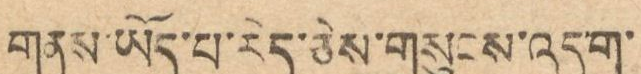གནས་ཡོད་པ་རེད་ཅེས་གསུངས་འདུག་
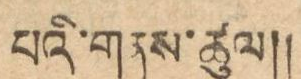པའི་གནས་ཚུལ།།
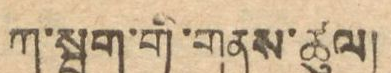ཀ་སྦུག་གི་གནས་ཚུལ།
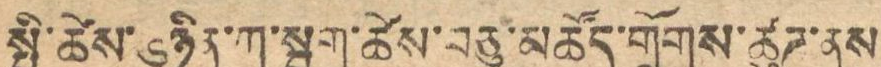སྤྱི་ཚེས་༦ཉིན་ཀ་སྦུག་ཚེས་བཅུ་མཚོད་གྲོགས་ཚུཊ་ནས
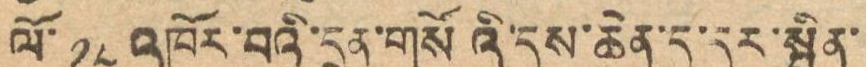ལོ་ ༡༨ འཁོར་བའི་དྲན་གསོའི་དུས་ཆེན་དུ་དུར་སྦིན་
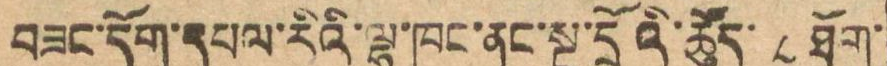བཟང་དོག་དཔལ་རིའི་ལྷ་ཁང་ནང་སྔ་དྲོའི་ཚོད་ ༨ ཐོག་
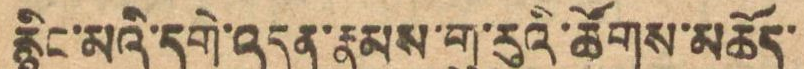རྙིང་མའི་དགེ་འདུན་རྣམས་གུ་རུའི་ཚོགས་མཆོད་
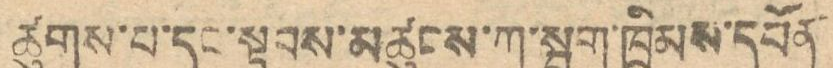ཚུགས་པ་དང་སྟབས་མཚུགས་ཀ་སྦུག་ཁྲིམས་དཔོན་
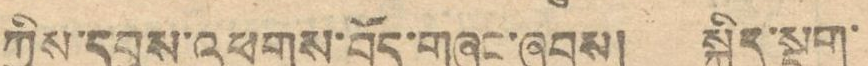ཀྱིས་དབུས་འཕགས་བོད་གཞུང་ཞབས། སྐྱིད་སྡུག་
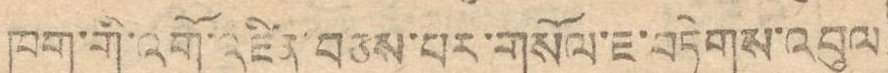ཁག་གི་འགོ་འཛིན་བཅས་པར་གསོལ་ཇ་བཏེགས་འབུལ
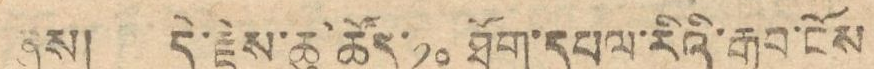ཞུས། དེ་རྗེས་ཆུ་ཚོད་ ༡༠ ཐོག་དཔལ་རིའི་རྒྱལ་ངོས
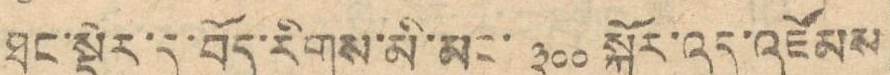ཐང་སྡེར་དུ་བོད་རིགས་མི་མང་ ༣༠༠ སྐོར་འདུ་འཛོམས
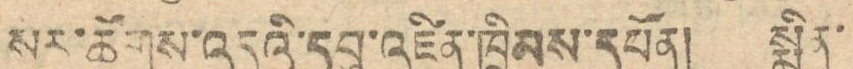སར་ཚོགས་འདུའི་དབུ་འཛིན་ཁྲིམས་དཔོན། སྨིན་
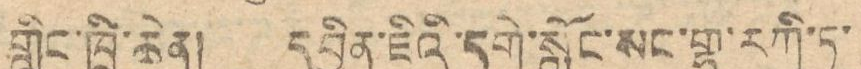གླིང་ཁྲི་ཆེན། དབྱིན་ཇིའི་དགེ་སློང་སང་གྷ་རཀི་ཏ་
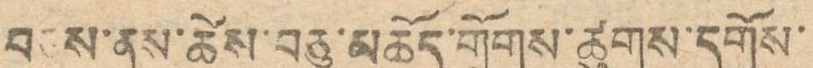བཅས་ནས་ཚེས་བཅུ་མཆོད་གྲོགས་ཚུགས་དགོས་
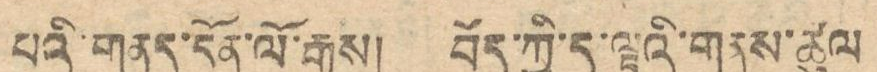པའི་གནད་དོན་ལོ་རྒྱུས། བོད་ཀྱི་ད་ལྟའི་གནས་ཚུལ
